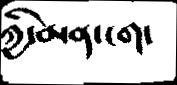ཀྱི་མན་ངག་
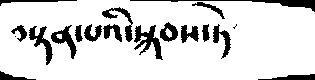བསྟན་པའི་སྐབས་ཏེ
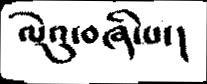ལེའུ་བཞི་པ་།
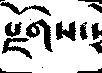རྫོགས་སྷོ
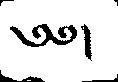༄༅།
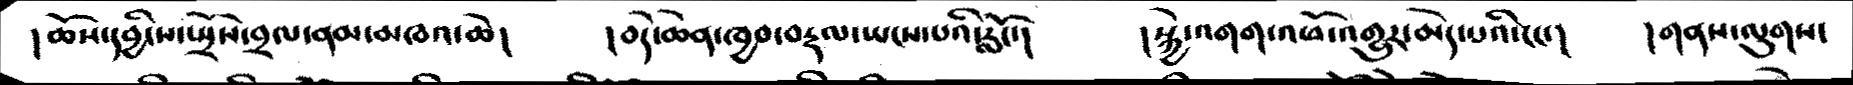།ཆོས་དབྱིངས་སྤྲོས་བྲལ་ནམ་མཁའ་ཆེ།   །བདེ་ཆེན་ཁྱབ་བརྡལ་ཡངས་པའི་རློང་།   །སྐྱེ་འགག་འཕོ་འགྱུར་མེད་པའི་ངང་།   །གནས་ལུགས་
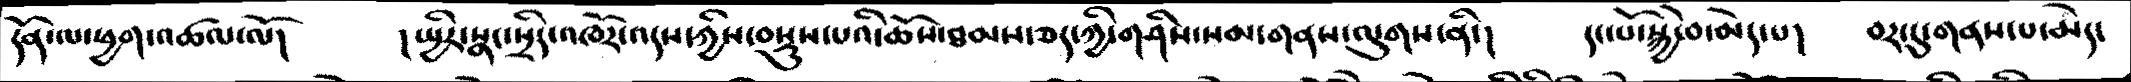དོན་ལ་ཕྱག་འཚལ་ལོ།    །སྤྱིར་སྣང་སྲིད་འཁོར་འདས་ཀྱིས་བསྡུས་པའི་ཆོས་ཐམས་ཅད་ཀྱི་གཤིས་སམ་གནས་ལུགས་ནི་།   དང་པོ་སྐྱེ་བ་མེད་པ།   བར་དུ་གནས་པ་མེད་
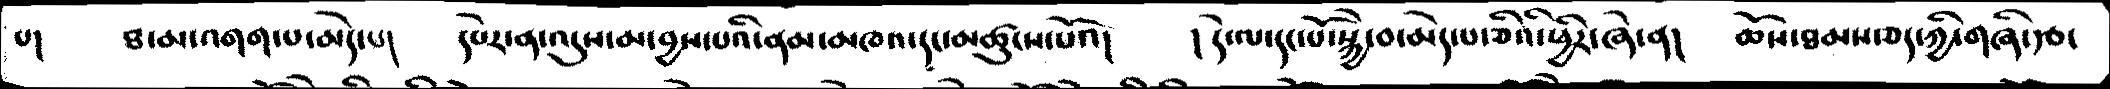པ།   ཐ་མ་འགག་པ་མེད་པ།   དཔེར་ན་འདུས་མ་བྱས་པའི་ནམ་མཁའ་དང་མཚུངས་པའོ།   །དེ་ལ་དང་པོ་སྐྱེ་བ་མེད་པ་ཅིའི་ཕྱིར་ཞེ་ན།   ཆོས་ཐམས་ཅད་ཀྱི་གཞི་རྩ་
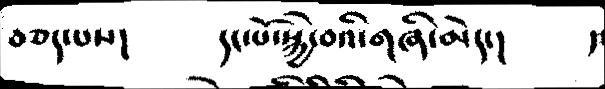བཅད་པས།    དང་པོ་སྐྱེ་བའི་གཞི་མེད་།
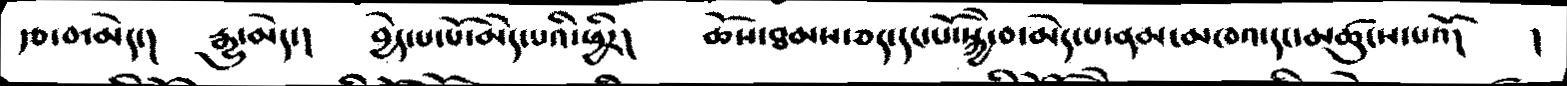རྩ་བ་མེད་།   རྒྱུ་མེད་།   བྱེད་པ་པོ་མེད་པའི་ཕྱིར།   ཆོས་ཐམས་ཅད་དང་པོ་སྐྱེ་བ་མེད་པ་ནམ་མཁའ་དང་མཚུངས་པའོ། །
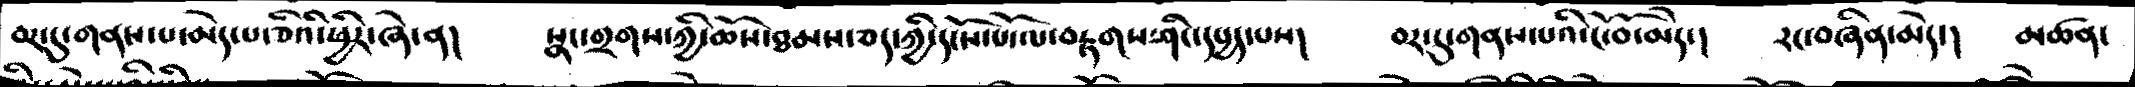བར་དུ་གནས་པ་མེད་པ་ཅིའི་ཕྱིར་ཞེ་ན།   སྣང་གྲགས་ཀྱི་ཆོས་ཐམས་ཅད་ཀྱི་དངོས་པོ་ལ་བརྟགས་ཤིང་དཔྱད་པས།   བར་དུ་གནས་པའི་ངོ་བོ་མེད་།  རང་བཞིན་མེད་།  མཚན་
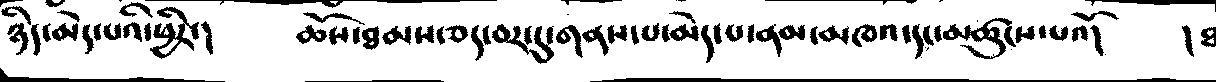ཉིད་མེད་པའི་ཕྱིར་།    ཆོས་ཐམས་ཅད་བར་དུ་གནས་པ་མེད་པ་ནམ་མཁའ་དང་མཚུངས་པའོ།    །ཐ
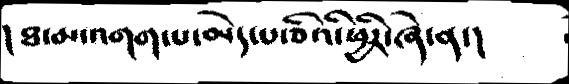།ཐ་མ་འགག་པ་མེད་པ་ཅིའི་ཕྱིར་ཞེ་ན་།
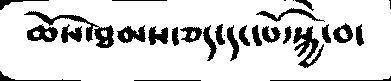ཆོས་ཐམས་ཅད་དང་པོ་སྐྱེ་བ་
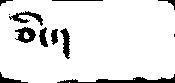ཅིང་།
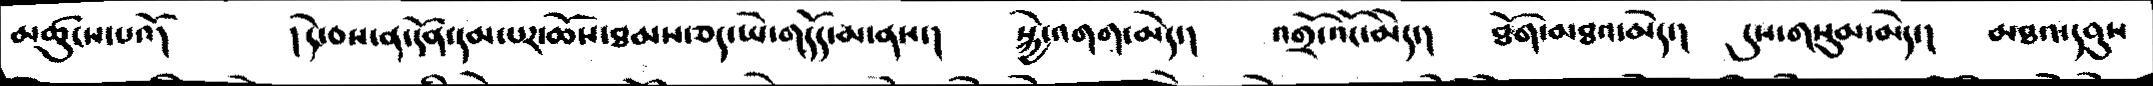མཚུངས་པའོ།   །དེ་བས་ན་དོན་དམ་པར་ཆོས་ཐམས་ཅད་ཡེ་གདོད་མ་ནས་།   སྐྱེ་འགག་མེད་།  འགྲོ་འོང་མེད་།  ཐོག་མཐའ་མེད་།  དུས་གསུམ་མེད་།  མཐའ་དབུས
